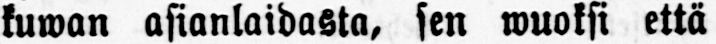kuwan asianlaidasta,sen wuoksi että
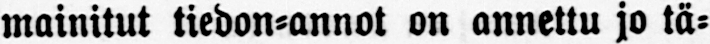mainitut tiedon-annot on annettu jo tä-
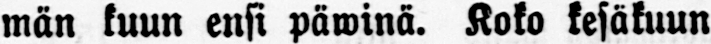män kuun ensi päiwinä. Koko kesäkuun
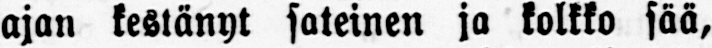ajan kestänyt sateinen ja kolkko sää,
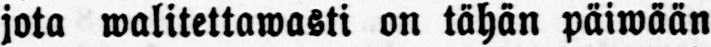jota walitettawasti on tähän päiwään
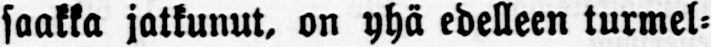saakka jatkunut, on yhä edelleen turmel-
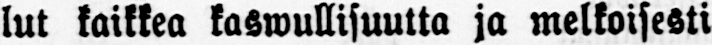lut kaikkea kaswullisuutta ja melkoisesti
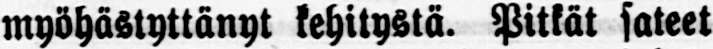myöhästyttänyt kehitystä. Pitkät sateet
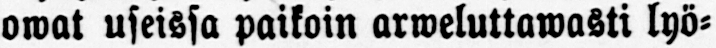owat useissa paikoin arweluttawasti lyö-
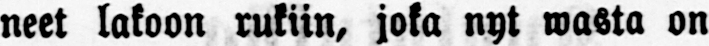neet lakoon rukiin, joka nyt wasta on
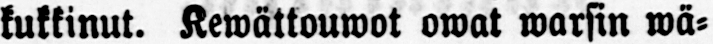kukkinut. Kewättouwot owat warsin wä-
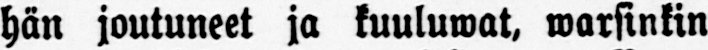hän joutuneet ja kuuluwat,warsinkin
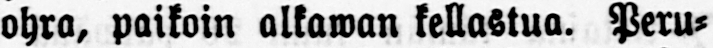ohra, paikoin alkawan kellastua. Peru-
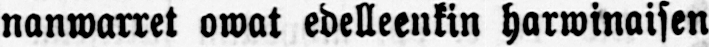nanwarret owat edelleekin harwinaisen
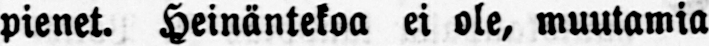pienet. Heinäntekoa ei ole, muutamia
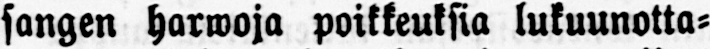sangen harwoja poikkeuksia lukuunotta-
